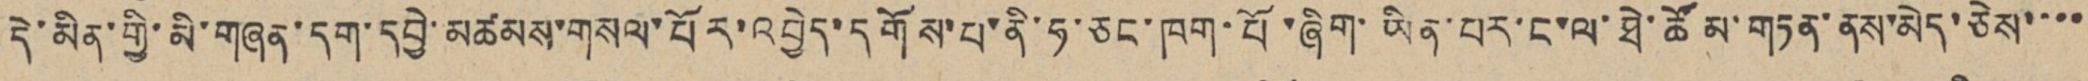དེ་མིན་གྱི་མི་གཞན་དག་དབྱེ་མཚམས་གསལ་པོར་འབྱེད་དགོས་པ་ནི་ཧ་ཅང་ཁག་པོ་ཞིག་ཡིན་པར་ང་ལ་ཐེ་ཚོམ་གཏན་ནས་མེད་ཅེས་་་་
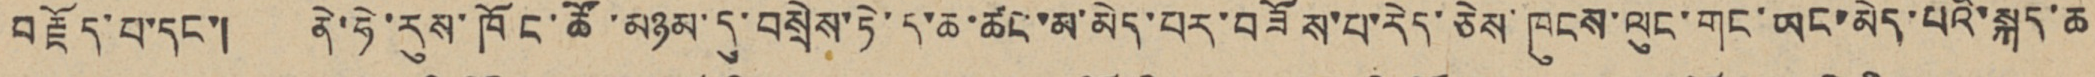བརྗོད་པ་དང་། ནེ་ཧེ་རུས་ཁོང་ཚོ་མཉམ་དུ་བསྲེས་ཏེ་ད་ཆ་ཚང་མ་མེད་པར་བཟོས་པ་རེད་ཅེས་ཁུངས་ལུང་གང་ཡང་མེད་པའི་སྐད་ཆ
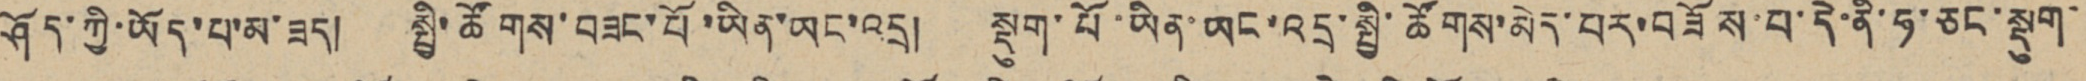ཤོད་ཀྱི་ཡོད་པ་མ་ཟད། སྤྱི་ཚོགས་བཟང་པོ་ཡིན་ཡང་འདྲ། སྡུག་པོ་ཡིན་ཡང་འདྲ་སྤྱི་ཚོགས་མེད་པར་བཟོས་པ་དེ་ནི་ཧ་ཅང་སྡུག་
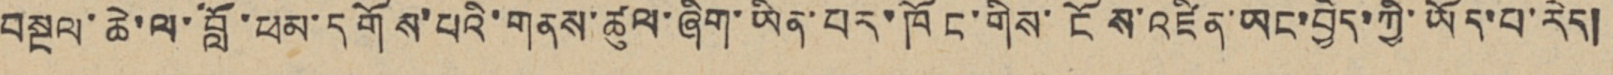བསྔལ་ཆེ་ལ་བློ་ཕམ་དགོས་པའི་གནས་ཚུལ་ཞིག་ཡིན་པར་ཁོང་གིས་ངོས་འཛིན་ཡང་བྱེད་ཀྱི་ཡོད་པ་རེད།
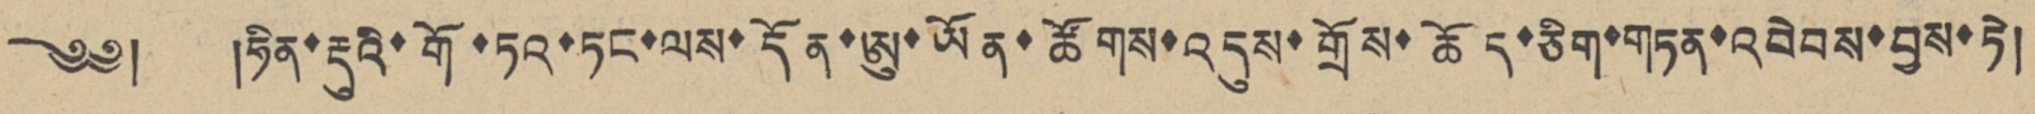༄༅། །ཧིན་རྡུའི་གོ་ཏའ་ཏང་ལས་དོན་ཨུ་ཡོན་ཚོགས་འདུས་གྲོས་ཆོད་ཅིག་གཏན་འབེབས་བྱས་ཏེ།
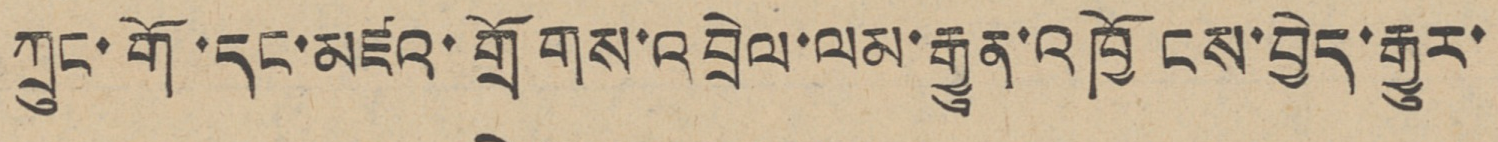ཀྲུང་གོ་དང་མཛའ་གྲོགས་འབྲེལ་ལམ་རྒྱུན་འཁྱོངས་བྱེད་རྒྱུར་
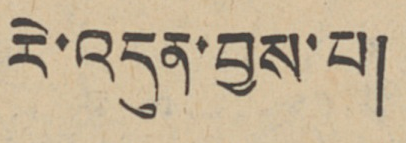རེ་འདུན་བྱས་པ།
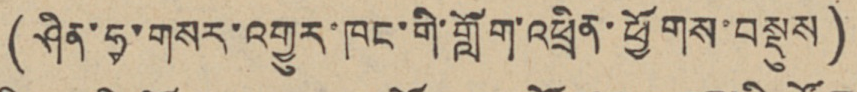(ཤིན་ཧྭ་གསར་འགྱུར་ཁང་གི་གློག་འཕྲིན་ཕྱོགས་བསྡུས)
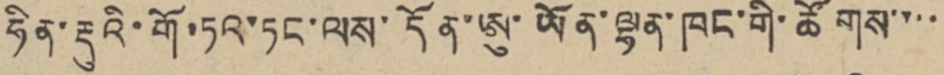ཧིན་རྡུའི་གོ་ཏའ་ཏང་ལས་དོན་ཨུ་ཡོན་ལྷན་ཁང་གི་ཚོགས་་་
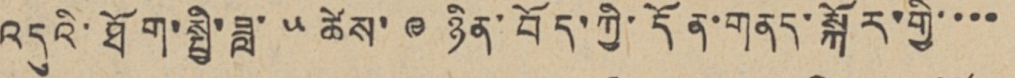འདུའི་ཐོག་སྤྱི་ཟླ་ ༥ ཚེས་ ༩ ཉིན་བོད་ཀྱི་དོན་གནད་སྐོར་གྱི་་་་
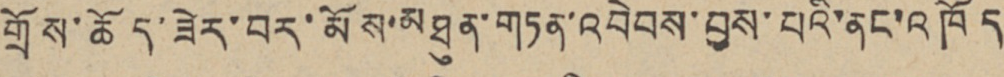གྲོས་ཆོད་ཟེར་བར་མོས་མཐུན་གཏན་འབེབས་བྱས་པའི་ནང་འཁོད
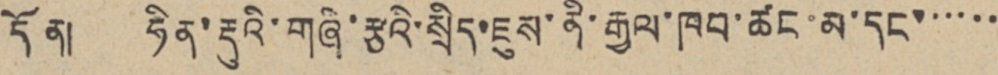དོན། ཧིན་རྡུའི་གཞི་རྩའི་སྲིད་ཇུས་ནི་རྒྱལ་ཁབ་ཚང་མ་དང་་་་་་
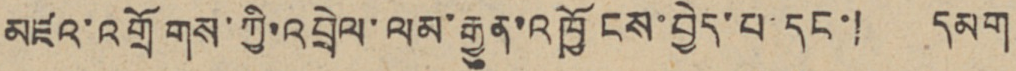མཛའ་འགྲོགས་ཀྱི་འབྲེལ་ལམ་རྒྱུན་འཁྱོངས་བྱེད་པ་དང་། དམག
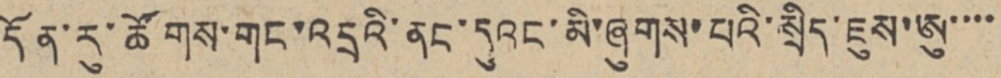དོན་རུ་ཚོགས་གང་འདྲའི་ནང་དུའང་མི་ཞུགས་པའི་སྲིད་ཇུས་ཨུ་་་་
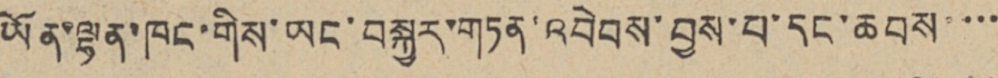ཡོན་ལྷན་ཁང་གིས་ཡང་བསྐྱར་གཏན་འབེབས་བྱས་པ་དང་ཆབས་་་་
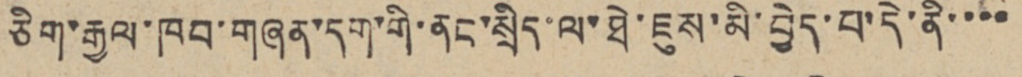ཅིག་རྒྱལ་ཁབ་གཞན་དག་གི་ནང་སྲིད་ལ་ཐེ་ཇུས་མི་བྱེད་པ་དེ་ནི་་་་
